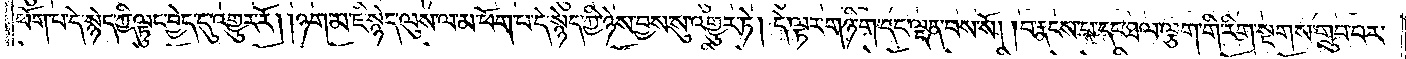ཕོག་པ་དེ་སྙེད་ཀྱི་ལྟུང་བྱེད་དུ་འགྱུར་རོ། །ཉག་མ་ཇི་སྙེད་ལུས་ལ་མ་ཕོག་པ་དེ་སྙེད་ཀྱི་ཉེས་བྱས་སུ་འགྱུར་ཏེ། དེ་ལྟར་གཉི་ག་དང་ལྡན་པས་སོ། །བརྣངས་པ་དང་ཐལ་ལྕག་གི་རིག་སྔགས་གྲུབ་པར་
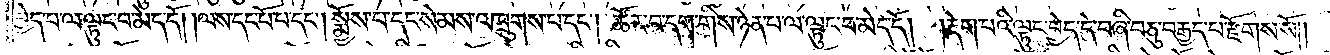བྱེད་པ་ལ་ལྟུང་བ་མེད་དོ། །ལས་དང་པོ་པ་དང༌། སྨྱོས་པ་དང་སེམས་འཁྲུགས་པ་དང༌། ཚོར་བ་དག་གིས་ཉེན་པ་ལ་ལྟུང་བ་མེད་དོ། །རྡེག་པའི་ལྟུང་བྱེད་དེ་བཞི་བཅུ་བརྒྱད་པ་རྫོགས་སོ༎
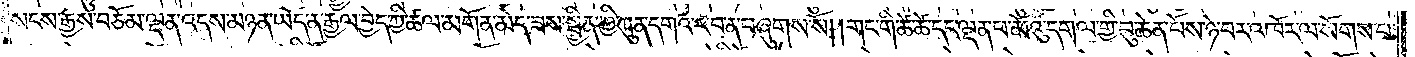སངས་རྒྱས་བཅོམ་ལྡན་འདས་མཉན་ཡོད་ན་རྒྱལ་བྱེད་ཀྱི་ཚལ་མགོན་མེད་ཟས་སྦྱིན་གྱི་ཀུན་དགའ་ར་བ་ན་བཞུགས་སོ། །གང་གི་ཚེ་ཚེ་དང་ལྡན་པ་མོའུ་དགལ་གྱི་བུ་ཆེན་པོས་ཉེ་བར་འཁོར་ལ་སོགས་པ་
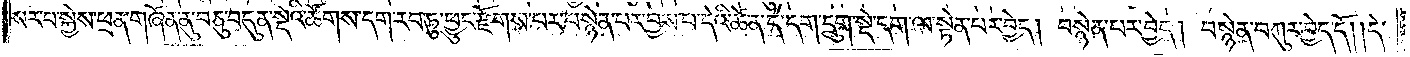སར་པ་སྐྱེས་ཕྲན་གཞོན་ནུ་བཅུ་བདུན་སྡེའི་ཚོགས་དག་རབ་ཏུ་ཕྱུང་རྫོགས་པར་བསྙེན་པར་བྱས་པ་དེའི་ཚེ་ན་དེ་དག་དྲུག་སྡེ་དག་ལ་སྟེན་པར་བྱེད། བསྙེན་པར་བྱེད། བསྙེན་བཀུར་བྱེད་དོ། །དེ་
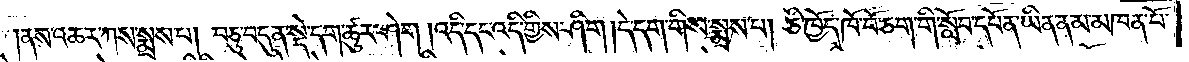ནས་འཆར་ཀས་སྨྲས་པ། བཅུ་བདུན་སྡེ་དག་ཚུར་ཤེག །འདི་དང་འདི་གྱིས་ཤིག །དེ་དག་གིས་སྨྲས་པ། ཅི་ཁྱོད་ཁོ་བོ་ཅག་གི་སློབ་དཔོན་ཡིན་ནམ་མཁན་པོ་
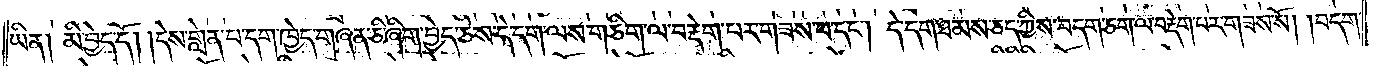ཡིན། མི་བྱེད་དོ། །དེས་གླེན་པ་དག་ཁྱེད་གཞན་ཅི་ཞིག་བྱེད་ཅེས་དེ་དག་ལས་གཅིག་ལ་བརྡེག་པར་གཟས་པ་དང༌། དེ་དག་ཐམས་ཅད་ཀྱིས་བདག་ཅག་ལ་བརྡེག་པར་གཟས་སོ། །བདག་
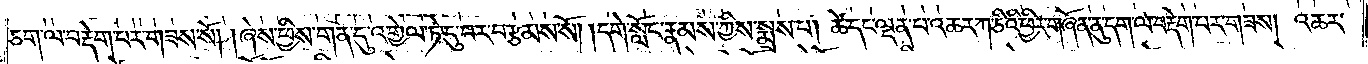ཅག་ལ་བརྡེག་པར་གཟས་སོ། །ཞེས་ཕྱིས་གན་དུ་འགྱེལ་ཏེ་དུ་བར་བརྩམས་སོ། །དགེ་སློང་རྣམས་ཀྱིས་སྨྲས་པ། ཚེ་དང་ལྡན་པ་འཆར་ཀ་ཅིའི་ཕྱིར་གཞོན་ནུ་དག་ལ་བརྡེག་པར་གཟས། འཆར་
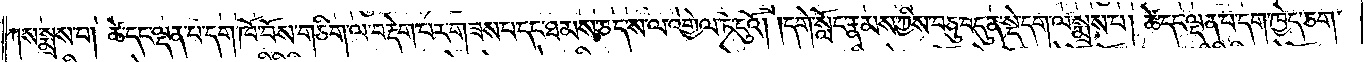ཀས་སྨྲས་པ། ཚེ་དང་ལྡན་པ་དག་ཁོ་བོས་གཅིག་ལ་བརྡེག་པར་གཟས་པ་དང་ཐམས་ཅད་ས་ལ་འགྱེལ་ཏེ་ངུའོ། །དགེ་སློང་རྣམས་ཀྱིས་བཅུ་བདུན་སྡེ་དག་ལ་སྨྲས་པ། ཚེ་དང་ལྡན་པ་དག་ཁྱེད་ཅག་
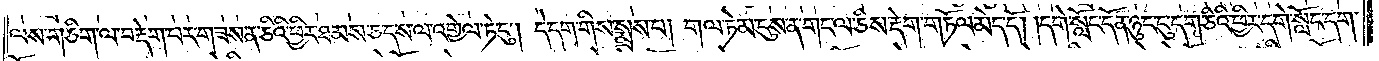ལས་གཅིག་ལ་བརྡེག་པར་གཟས་ན་ཅིའི་ཕྱིར་ཐམས་ཅད་ས་ལ་འགྱེལ་ཏེ་ངུ༌། དེ་དག་གིས་སྨྲས་པ། གལ་ཏེ་མ་ངུས་ན་གང་ལ་ཅིས་རྡེག་གཏོལ་མེད་དོ། །དགེ་སློང་དོན་ཉུང་ངུ་དག་ཅིའི་ཕྱིར་དགེ་སློང་དག་
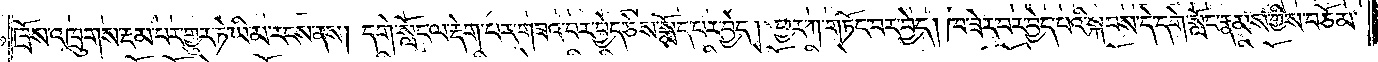ཁྲོས་འཁྲུགས་རྔམ་པར་གྱུར་ཏེ་ཡི་མ་རངས་ནས། དགེ་སློང་ལ་རྡེག་པར་གཟའ་བར་བྱེད་ཅེས་སྨོད་པར་བྱེད། ཕྱར་ཀ་གཏོང་བར་བྱེད། ཁ་ཟེར་བར་བྱེད་པའི་སྐབས་དེ་དགེ་སློང་རྣམས་ཀྱིས་བཅོམ་
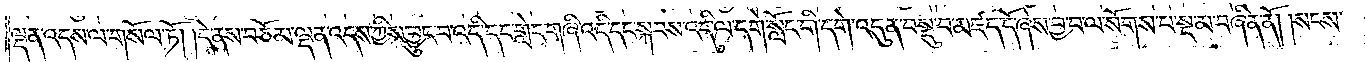ལྡན་འདས་ལ་གསོལ་ཏོ། །དེ་ནས་བཅོམ་ལྡན་འདས་ཀྱིས་བྱུང་བ་འདི་དང་གླེང་གཞི་འདི་དང་སྐབས་འདི་ལ་དགེ་སློང་གི་དགེ་འདུན་བསྡུ་བ་མཛད་དོ་ཞེས་བྱ་བ་ལ་སོགས་པ་སྔ་མ་བཞིན་ནོ། །སངས་
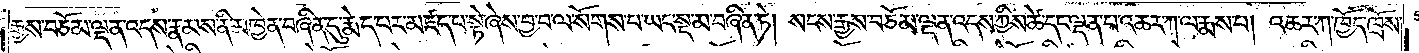རྒྱས་བཅོམ་ལྡན་འདས་རྣམས་ནི་མཁྱེན་བཞིན་དུ་རྨེད་པར་མཛད་པ་སྟེ་ཞེས་བྱ་བ་ལ་སོགས་པ་ཡང་སྔ་མ་བཞིན་ཏེ། སངས་རྒྱས་བཅོམ་ལྡན་འདས་ཀྱིས་ཚེ་དང་ལྡན་པ་འཆར་ཀ་ལ་རྨས་པ། འཆར་ཀ་ཁྱོད་ཁྲོས་
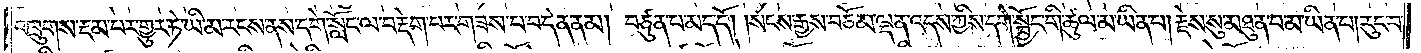འཁྲུགས་རྔམ་པར་གྱུར་ཏེ་ཡི་མ་རངས་ནས་དགེ་སློང་ལ་བརྡེག་པར་གཟས་པ་བདེན་ནམ། བཙུན་པ་མད་དོ། །སངས་རྒྱས་བཅོམ་ལྡན་འདས་ཀྱིས་དགེ་སྦྱོང་གི་ཚུལ་མ་ཡིན་པ། རྗེས་སུ་མཐུན་པ་མ་ཡིན་པ། རུང་བ་
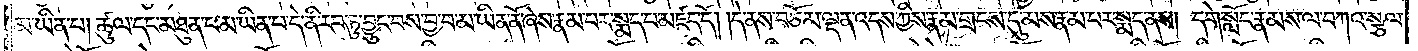མ་ཡིན་པ། ཚུལ་དང་མཐུན་པ་མ་ཡིན་པ་དེ་ནི་རབ་ཏུ་བྱུང་བས་བྱ་བ་མ་ཡིན་ནོ་ཞེས་རྣམ་པར་སྨད་པ་མཛད་དོ། །དེ་ནས་བཅོམ་ལྡན་འདས་ཀྱིས་རྣམ་གྲངས་དུ་མས་རྣམ་པར་སྨད་ནས། དགེ་སློང་རྣམས་ལ་བཀའ་སྩལ་
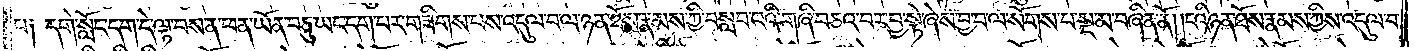པ༑ དགེ་སློང་དག་དེ་ལྟ་བས་ན་ཕན་ཡོན་བཅུ་ཡང་དག་པར་གཟིགས་པས་འདུལ་བ་ལ་ཉན་ཐོས་རྣམས་ཀྱི་བསླབ་པའི་གཞི་བཅའ་བར་བྱ་སྟེ་ཞེས་བྱ་བ་ལ་སོགས་པ་སྔ་མ་བཞིན་ནོ། །ངའི་ཉན་ཐོས་རྣམས་ཀྱིས་འདུལ་བ་
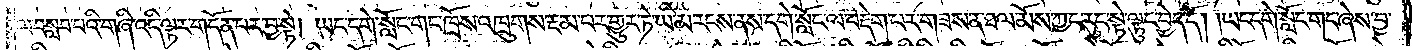ལ་བསླབ་པའི་གཞི་འདི་ལྟར་གདོན་པར་བྱ་སྟེ། ཡང་དགེ་སློང་གང་ཁྲོས་འཁྲུགས་རྔམ་པར་གྱུར་ཏེ་ཡི་མ་རངས་ནས་དགེ་སློང་ལ་བརྡེག་པར་གཟས་ན་ཐལ་མོས་ཀྱང་རུང་སྟེ་ལྟུང་བྱེད་དོ། །ཡང་དགེ་སློང་གང་ཞེས་བྱ་
